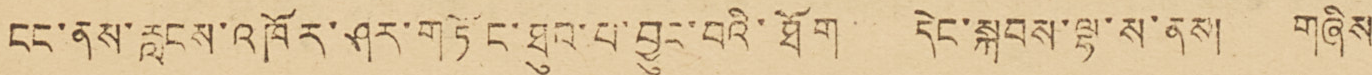ངང་ནས་རླངས་འཁོར་ཤར་གཏོང་ཐུབ་པ་བྱུང་བའི་ཐོག དེང་སྐབས་ལྷ་ས་ནས། གཞིས་
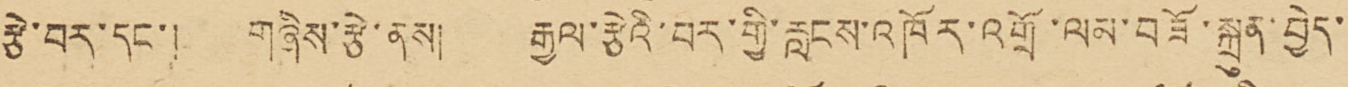རྩེ་བར་དང་། གཞིས་རྩེ་ནས། རྒྱལ་རྩེའི་བར་གྱི་རླངས་འཁོར་འགྲོ་ལམ་བཟོ་སྐྲུན་བྱེད་་་
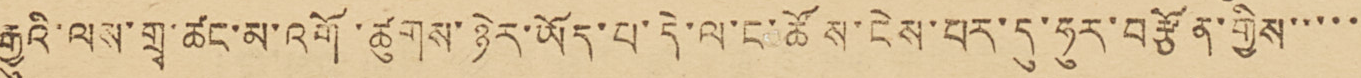རྒྱུའི་ལས་གྲྭ་ཚང་མ་འགོ་ཚུགས་ཉེར་ཡོད་པ་དེ་ལ་ང་ཚོས་ངེས་པར་དུ་ཧུར་བརྩོན་གྱིས་་་་་་
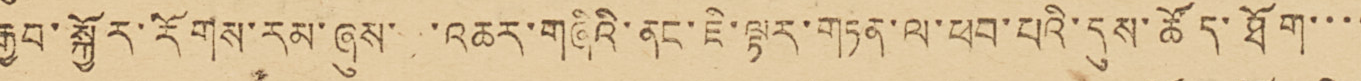རྒྱབ་སྐྱོར་རོགས་རམ་ཞུས་ འཆར་གཞིའི་ནང་ཇི་ལྟར་གཏན་ལ་ཕབ་པའི་དུས་ཚོད་ཐོག་་་་
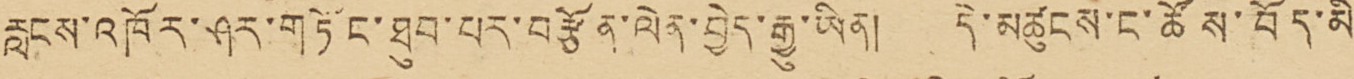རླངས་འཁོར་ཤར་གཏོང་ཐུབ་པར་བརྩོན་ལེན་བྱེད་རྒྱུ་ཡིན། དེ་མཚུངས་ང་ཚོས་བོད་མི་་
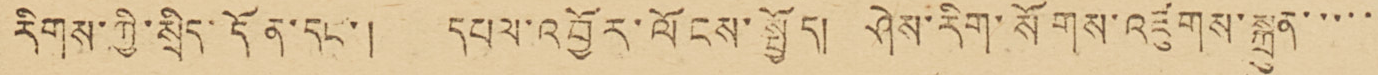རིགས་ཀྱི་སྲིད་དོན་དང་། དཔལ་འབྱོར་ལོངས་སྤྱོད། ཤེས་རིག་སོགས་འཛུགས་སྐྲུན་་་་་་
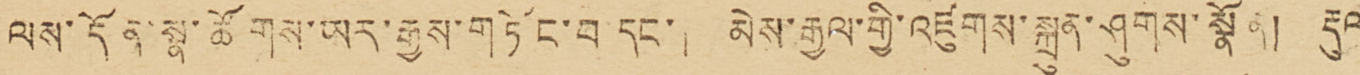ལས་དོན་སྣ་ཚོགས་ཡར་རྒྱས་གཏོང་བ་དང་། མེས་རྒྱལ་གྱི་འཛུགས་སྐྲུན་ཤུགས་སྣོན། རྡུལ་
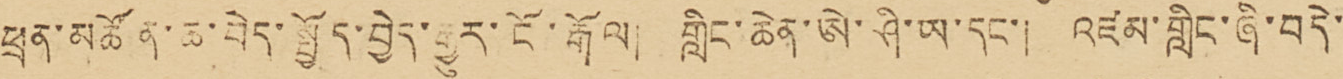ཕྲན་མཚོན་ཆ་བེད་སྤྱོད་བྱེད་རྒྱུར་ངོ་རྒོལ། གླིང་ཆེན་ཨེ་ཤི་ཡ་དང་། འཛམ་གླིང་ཞི་བདེ་་
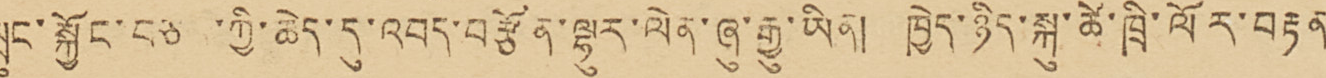སྲུང་སྐྱོང་བཅས་ཀྱི་ཆེད་དུ་འབད་བརྩོན་ལྷུར་ལེན་ཞུ་རྒྱུ་ཡིན། ཁྱེད་ཉིད་སྐུ་ཚེ་ཁྲི་ལོར་བརྟན་་
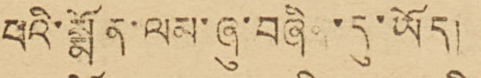པའི་སྨོན་ལམ་ཞུ་བཞིན་དུ་ཡོད།
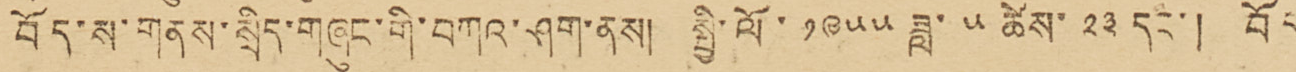བོད་ས་གནས་སྲིད་གཞུང་གི་བཀའ་ཤག་ནས། སྤྱི་ལོ་ ༡༩༥༥ ཟླ་ ༥ ཚེས་ ༢༣ དང་། བོད་
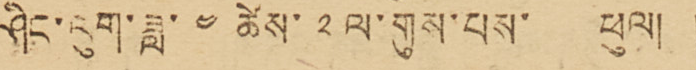ཤིང་ལུག་ཟླ་ ༤ ཚེས་ ༢ ལ་གུས་པས་ ཕུལ། །
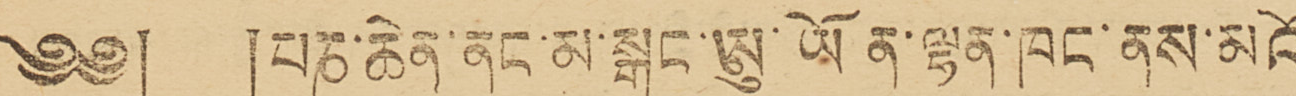༄༅། །པཎ་ཆེན་ནང་མ་སྒང་ཨུ་ཡོན་ལྷན་ཁང་ནས་མའོ་
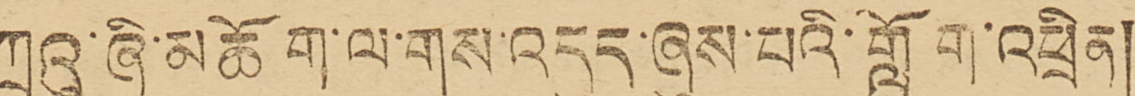ཀྲུའུ་ཞི་མཆོག་ལ་གུས་འདུད་ཞུས་པའི་གློག་འཕྲིན།
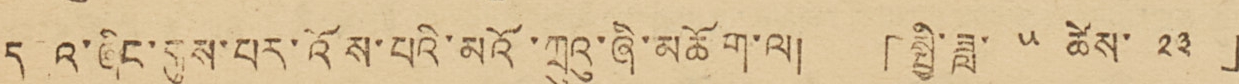དཔའ་ཞིང་གུས་པར་འོས་པའི་མའོ་ཀྲུའུ་ཞི་མཆོག་ལ། 「སྤྱི་ཟླ་ ༥ ཚེས་ ༢༣」
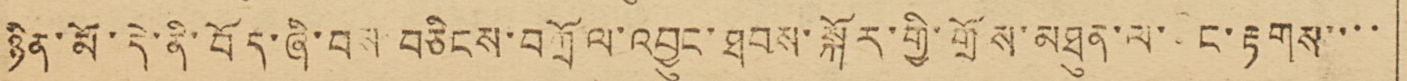ཉིན་མོ་དེ་ནི་བོད་ཞི་བས་བཅིངས་བཀྲོལ་འབྱུང་ཐབས་སྐོར་གྱི་གྲོས་མཐུན་ལ་ ང་རྟགས་་་་
